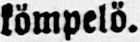kömpelö.
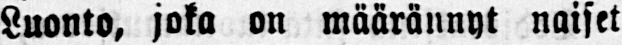Luonto, joka on määrännyt naiset
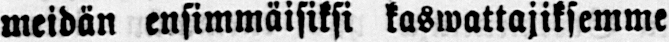meidän ensimmäisiksi kaswattajiksemme
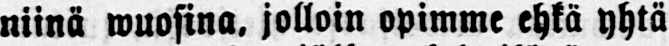niinä wuosina, jolloin opimme ehkä yhtä
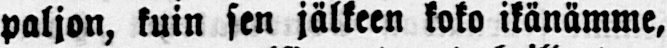paljon, kuin sen jälkeen koko ikänämme,
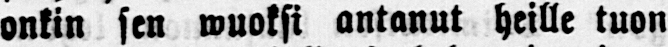onkin sen wuoksi antanut heille tuon
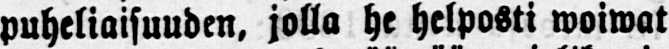puheliaisuuden, jolla he helposti woiwat
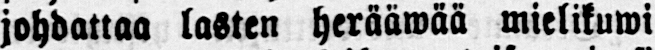johdattaa lasten herääwää mielikuwi-
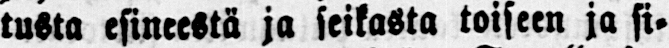tusta esineestä ja seikasta toiseen ja si-
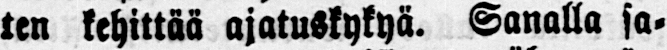ten kehittää ajatuskykyä. Sanalla sa-
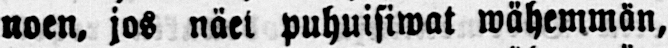noen, jos näet puhuisiwat wähemmän,
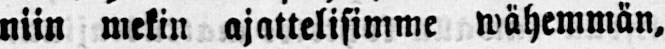niin mekin ajattelisimme wähemmän,
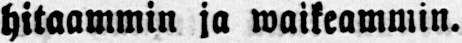hitaammin ja waikeammin.
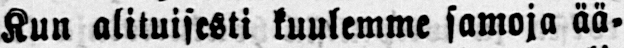Kun alituisesti kuulemme samoja ää-
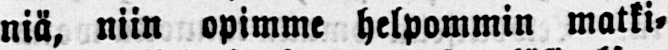niä, niin opimme helpommin matki-
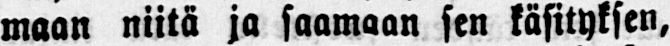maan niitä ja saamaan sen käsityksen,
